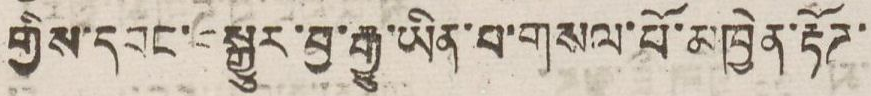གྱིས་དབང་བསྒྱུར་བྱ་རྒྱུ་ཡིན་པ་གསལ་པོ་མཁྱེན་རྟོཊ་
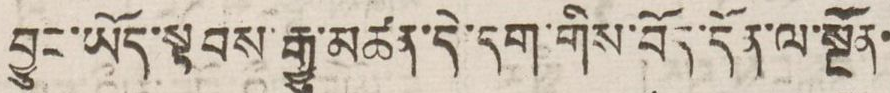བྱུང་ཡོད་སྟབས་རྒྱུ་མཚན་དེ་དག་གིས་བོད་དོན་ལ་སྔོན་
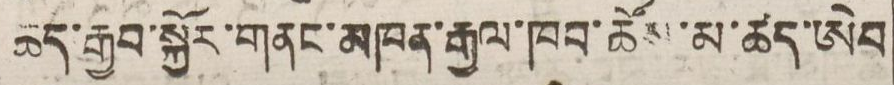ཆད་རྒྱབ་སྐྱོར་གནང་མཁན་རྒྱལ་ཁབ་ཚོས་མ་ཚད་ཨེབ
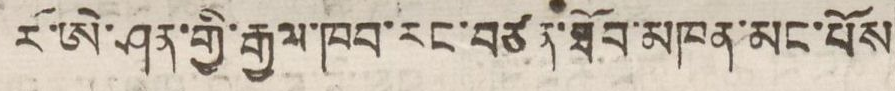རོ་ཨེ་ཤན་གྱི་རྒྱལ་ཁབ་རང་བཙན་ཐོབ་མཁན་མང་པོས
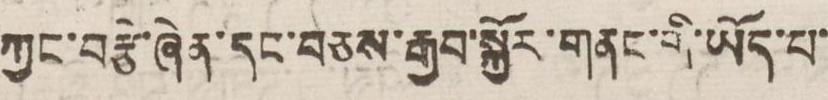ཀྱང་བརྩེ་ཞེན་དང་བཅས་རྒྱབ་སྐྱོར་གནང་གི་ཡོད་པ་
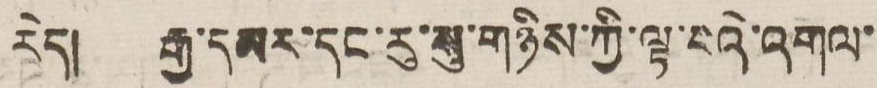རེད། རྒྱ་དམར་དང་རུ་སུ་གཉིས་ཀྱི་ལྟ་ངའི་འགལ་
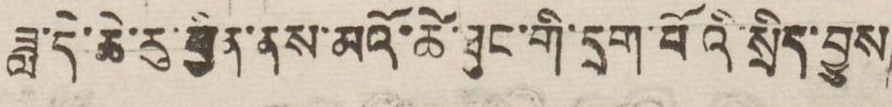ཟླ་དེ་ཆེ་རུ་ཕྱིན་ནས་མའོ་ཚེ་ཐུང་གོ་དྲག་པོའི སྲིད་བྱུས་
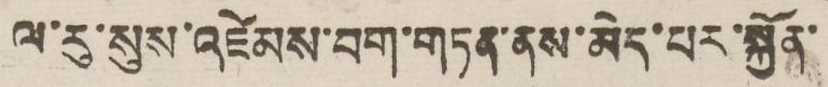ལ་རུ་སུས་འཛེམས་བག་གཏན་ནས་མེད་པར་སྐྱོན་
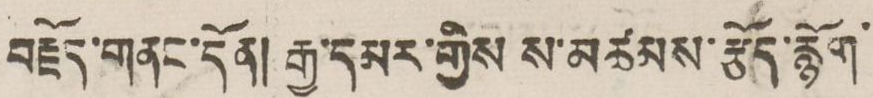བརྗོད་གནང་དོན། རྒྱ་དམར་གྱིས ས་མཚམས་རྩོད་རྙོག་
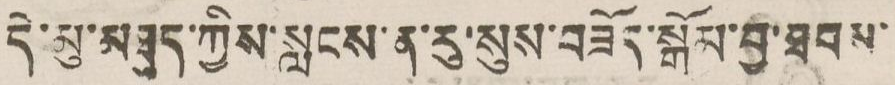དེ་མུ་མཐུད་ཀྱིས་སླངས་ན་རུ་སུས་བཟོད་སྒོམ་བྱ་ཐབས་
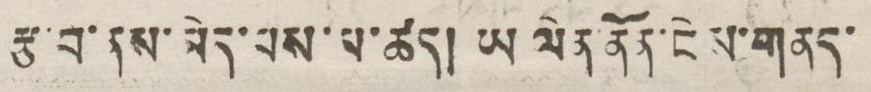རྩ་བ་ནས་མེད་པས་མ་ཚད། ཡ་ལེན་ནོན་ངེས་གནད་
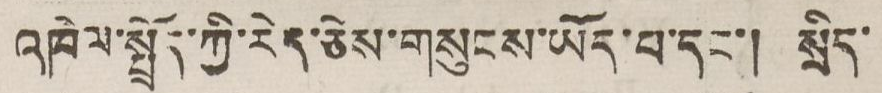འཁེལ་སྤྲོད་ཀྱི་རེད་ཅེས་གསུངས་ཡོད་པ་དང་། སྲིད་
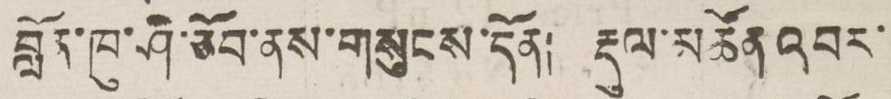བློན་ཁུ་ཤི་ཅོབ་བས་གསུངས་དོན། རྡུལ་མཚོན་འབར་
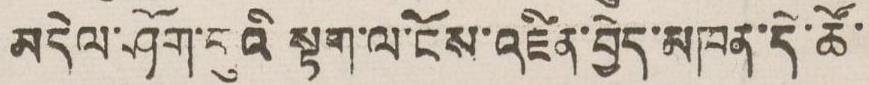མདེལ་ཤོག་གུའི སྟག་ལ་ངོས་འཛིན་བྱེད་མཁན་དེ་ཚོ་
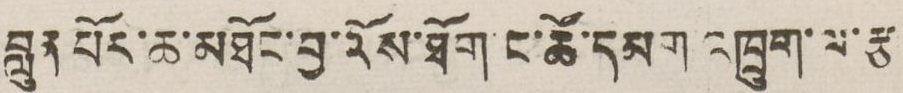བླུན པོར་ཆ་མཐོང་བྱ་འོས་ཐོག ང་ཚོ་དམག འཁྲུག་ལ་རྩ
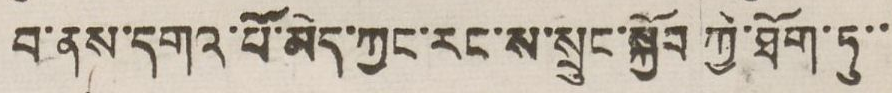བ་ནས་དགའ་པོ་མེད་ཀྱང་རང་ས་སྲུང་སྐྱོབ ཀྱི་ཐོག་ཏུ་་
